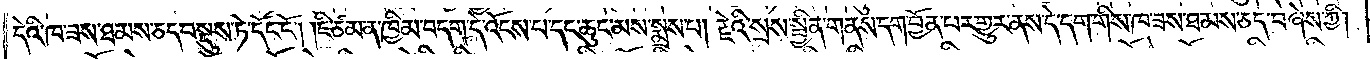དེའི་ཁ་ཟས་ཐམས་ཅད་བསྡུས་ཏེ་དོང་ངོ༌། །ཇི་ཙམ་ན་ཁྱིམ་བདག་དེ་འོངས་པ་དང་ཆུང་མས་སྨྲས་པ། རྗེའི་སྲས་སྦྱིན་གནས་དག་བྱོན་པར་གྱུར་ནས་དེ་དག་གིས་ཁ་ཟས་ཐམས་ཅད་བཞེས་ཀྱི།
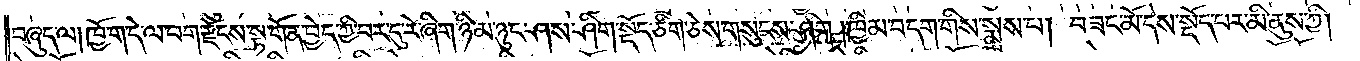བཞུད་ལ། ཁྱོ་ག་དེ་ལ་བག་རྫོངས་སྟ་གོན་བྱེད་ཀྱི་བར་དུ་རེ་ཞིག་ཉི་མ་ཉུང་ཤས་ཤིག་སྡོད་ཅིག་ཅེས་གསུངས་ཤིག །ཁྱིམ་བདག་གིས་སྨྲས་པ། བཟང་མོ་དེས་སྡོད་པར་མི་ནུས་ཀྱི།
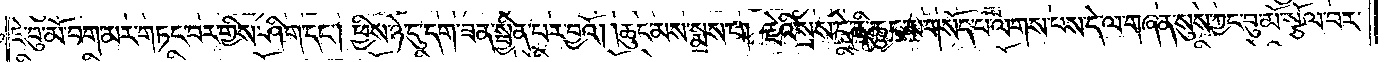ཇེ་བུ་མོ་བག་མར་གཏང་བར་གྱིས་ཤིག་དང༌། ཕྱིས་ཉེ་དུ་དག་ཟན་སྦྱིན་པར་བྱའོ། །ཆུང་མས་སྨྲས་པ། རྗེའི་སྲས་དེ་ནི་ཆུང་མ་གསོད་པ་ལགས་པས་དེ་ལ་གཞན་སུས་ཀྱང་བུ་མོ་སྩོལ་བར་
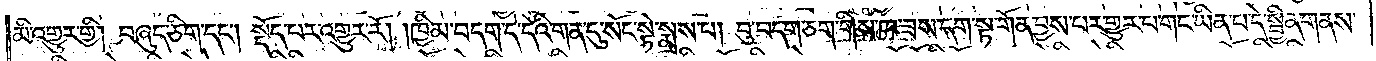མི་འགྱུར་གྱི། བཞུད་ཅིག་དང༌། སྡོད་པར་འགྱུར་རོ། །ཁྱིམ་བདག་དེ་དེའི་གན་དུ་སོང་སྟེ་སྨྲས་པ། བུ་བདག་ཅག་གིས་ཁ་ཟས་དག་སྟ་གོན་བྱས་པར་གྱུར་པ་གང་ཡིན་པ་དེ་སྦྱིན་གནས་
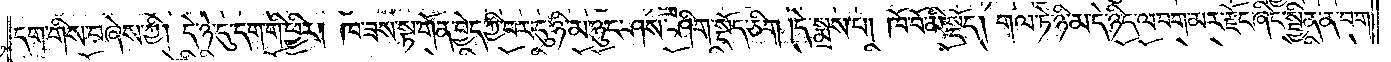དག་གིས་བཞེས་ཀྱི། དེ་ཉེ་དུ་དག་གི་ཕྱིར། ཁ་ཟས་སྟ་གོན་བྱེད་ཀྱི་བར་དུ་ཉི་མ་ཉུང་ཤས་ཤིག་སྡོད་ཅིག །དེ་སྨྲས་པ། ཁོ་བོ་མི་སྡོད། གལ་ཏེ་ཉི་མ་དེ་ཉིད་ལ་བག་མར་རྫོང་ཞིང་སྦྱིན་ན་བག་
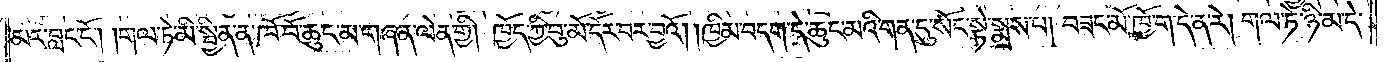མར་བླང་ངོ༌། །གལ་ཏེ་མི་སྦྱིན་ན་ཁོ་བོ་ཆུང་མ་གཞན་ལེན་གྱི། ཁྱོད་ཀྱི་བུ་མོ་དོར་བར་བྱའོ། །ཁྱིམ་བདག་དེ་ཆུང་མའི་གན་དུ་སོང་སྟེ་སྨྲས་པ། བཟང་མོ་ཁྱོ་ག་དེ་ན་རེ། གལ་ཏེ་ཉི་མ་དེ་
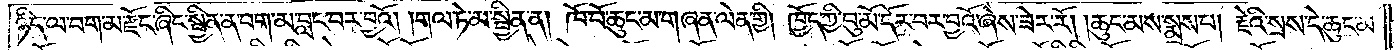ཉིད་ལ་བག་མ་རྫོང་ཞིང་སྦྱིན་ན་བག་མ་བླང་བར་བྱའོ། །གལ་ཏེ་མ་སྦྱིན་ན། ཁོ་བོ་ཆུང་མ་གཞན་ལེན་གྱི། ཁྱོད་ཀྱི་བུ་མོ་དོར་བར་བྱའོ་ཞེས་ཟེར་རོ། །ཆུང་མས་སྨྲས་པ། རྗེའི་སྲས་དེ་ཆུང་མ་
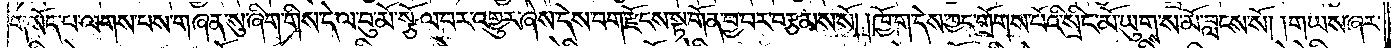གསོད་པ་ལགས་པས་གཞན་སུ་ཞིག་གིས་དེ་ལ་བུ་མོ་སྩོལ་བར་འགྱུར་ཞེས་དེས་བག་རྫོངས་སྟ་གོན་བྱ་བར་བརྩམས་སོ། །ཁྱོ་ག་དེས་ཀྱང་གྲོགས་པོའི་སྲིང་མོ་ཡུགས་ས་མོ་བླངས་སོ། །གཡས་ཞར་
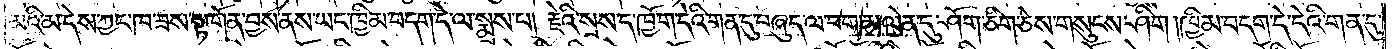མའི་མ་དེས་ཀྱང་ཁ་ཟས་སྟ་གོན་བྱས་ནས་ཡང་ཁྱིམ་བདག་དེ་ལ་སྨྲས་པ། རྗེའི་སྲས་ད་ཁྱོ་ག་དེའི་གན་དུ་བཞུད་ལ་བག་མ་ལེན་དུ་ཤོག་ཅིག་ཅེས་གསུངས་ཤིག །ཁྱིམ་བདག་དེ་དེའི་གན་དུ་
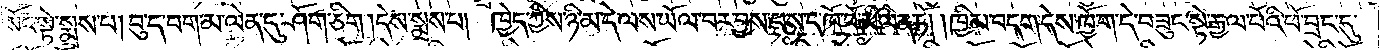སོང་སྟེ་སྨྲས་པ། བུ་ད་བག་མ་ལེན་དུ་ཤོག་ཅིག །དེས་སྨྲས་པ། ཁྱེད་ཀྱིས་ཉི་མ་དེ་ལས་ཡོལ་བར་བྱས་པས་ད་ཁོ་བོ་མི་ལེན་ཏོ། །ཁྱིམ་བདག་དེས་ཁྱོ་ག་དེ་བཟུང་སྟེ་རྒྱལ་པོའི་ཕོ་བྲང་དུ་
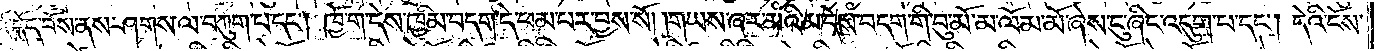འོ་དོད་བོས་ནས་ཤགས་ལ་བཀུག་པ་དང༌། ཁྱོ་ག་དེས་ཁྱིམ་བདག་དེ་ཕམ་པར་བྱས་སོ། །གཡས་ཞར་མའི་མ་དེས་བདག་གི་བུ་མོ་མ་ལོམ་མོ་ཞེས་ངུ་ཞིང་འདུག་པ་དང༌། དེའི་ངོས་
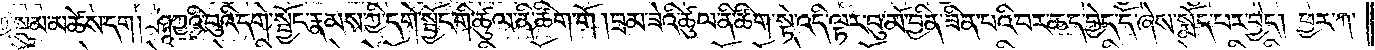ཀྱི་སྡུམ་མཚེས་དག། ཤཱཀྱའི་བུའི་དགེ་སྦྱོང་རྣམས་ཀྱི་དགེ་སྦྱོང་གི་ཚུལ་ནི་ཚིག་གོ །བྲམ་ཟེའི་ཚུལ་ནི་ཚིག་སྟེ་འདི་ལྟར་བུ་མོ་བྱིན་ཟིན་པའི་བར་ཆད་བྱེད་དོ་ཞེས་སྨོད་པར་བྱེད། ཕྱར་ཀ་
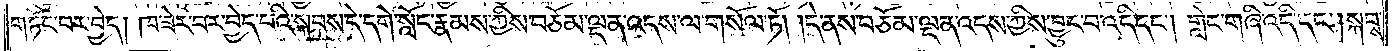གཏོང་བར་བྱེད། ཁ་ཟེར་བར་བྱེད་པའི་སྐབས་དེ་དགེ་སློང་རྣམས་ཀྱིས་བཅོམ་ལྡན་འདས་ལ་གསོལ་ཏོ། །དེ་ནས་བཅོམ་ལྡན་འདས་ཀྱིས་བྱུང་བ་འདི་དང༌། གླེང་གཞི་འདི་དང༌། སྐབས་
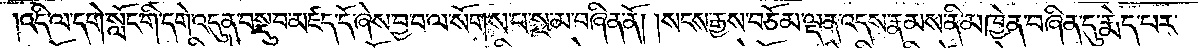འདི་ལ་དགེ་སློང་གི་དགེ་འདུན་བསྡུ་བ་མཛད་དོ་ཞེས་བྱ་བ་ལ་སོགས་པ་སྔ་མ་བཞིན་ནོ། །སངས་རྒྱས་བཅོམ་ལྡན་འདས་རྣམས་ནི་མཁྱེན་བཞིན་དུ་རྨེད་པར་
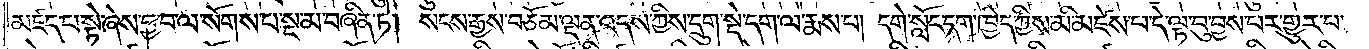མཛད་པ་སྟེ་ཞེས་བྱ་བ་ལ་སོགས་པ་སྔ་མ་བཞིན་ཏེ། སངས་རྒྱས་བཅོམ་ལྡན་འདས་ཀྱིས་དྲུག་སྡེ་དག་ལ་རྨས་པ། དགེ་སློང་དག་ཁྱེད་ཀྱིས་མི་མཛེས་པ་དེ་ལྟ་བུ་བྱས་པར་གྱུར་པ་
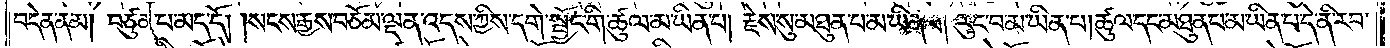བདེན་ནམ། བཙུན་པ་མད་དོ། །སངས་རྒྱས་བཅོམ་ལྡན་འདས་ཀྱིས་དགེ་སྦྱོང་གི་ཚུལ་མ་ཡིན་པ། རྗེས་སུ་མཐུན་པ་མ་ཡིན་པ། རུང་བ་མ་ཡིན་པ། ཚུལ་དང་མཐུན་པ་མ་ཡིན་པ་དེ་ནི་རབ་
